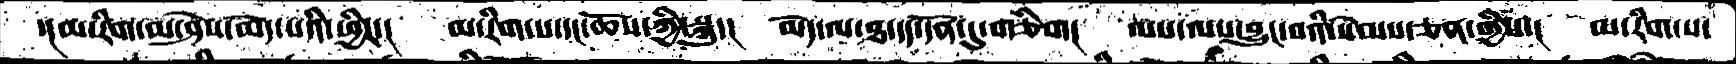་།མ་རིག་མ་ཤེས་མེད་པའི་ཕྱིར་།  མ་རིག་པ་དང་ཆོས་ཀྱི་སྐུ་།  མེད་ལ་ཐ་དད་དོན་དུ་གཅིག། ལས་ལས་བྱུང་བའི་སེམས་ཅན་གྱིས་། མ་རིག་པ་
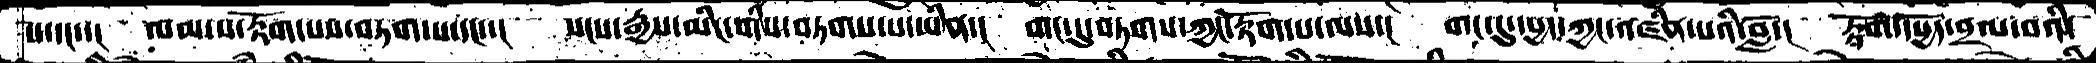པ་དང་་།  ལམ་པ་རྟོག་པས་བཏག་པ་དང་་།  སངས་རྒྱས་མིང་གིས་བཏགས་པ་ཡིན་།  གང་དུ་བཏགས་ཀྱང་རྟོག་པ་ལས་།  གང་དུ་དཔྱད་ཀྱང་འཛིན་པའི་བློ་།  རྟོག་དཔྱོད་བྲལ་བའི་
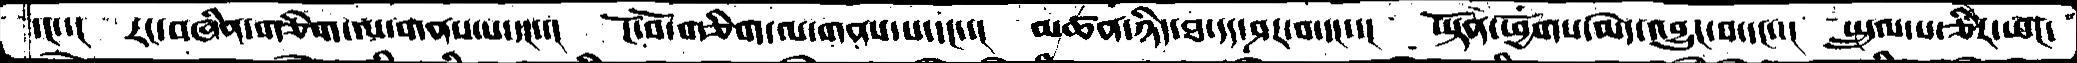དང་།  རང་བཞིན་གཅིག་ལ་གནས་པ་དང་་།  ངོ་བོ་གཅིག་ལ་གནས་པ་དང་་།  མཚན་ཉིད་ཐ་དད་ཤར་བ་དང་་།  ཡྟོན་ཕྱོགས་མེད་འབྱུང་བ་དང་་།  སྤྲུལ་པ་ཅིར་ཡང་
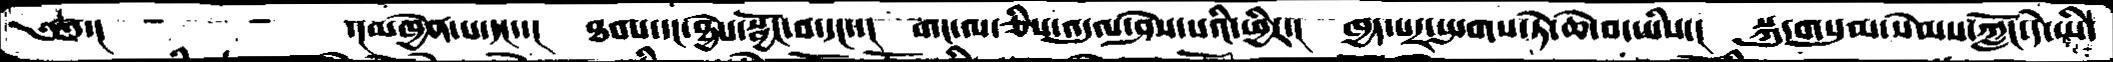༄༅་།        ་།མཁྱེན་པ་དང་་།  ཐབས་དང་ཐྱེས་སྦྱོང་བ་དང་་།  གང་ལ་ཅིས་འདུལ་ཤེས་པའི་ཕྱིར་།  ཁྱད་པར་སྤགས་ཏེ་ཆེ་བ་ཡིས་།  སྐུ་གསུམ་སེམས་ཀློང་དེ་ཡི་
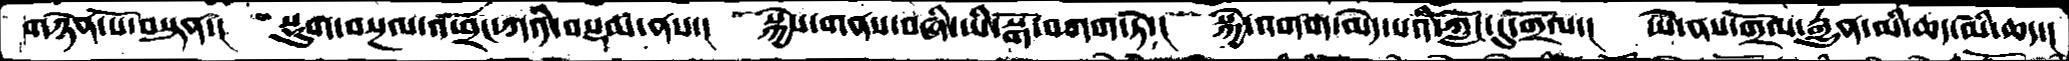གཉེན་པོ་བསྟན་།  སྡུག་བསྔལ་འཕྲོང་ཀའི་བསྡམ་ནས་།  སྐྱེས་གནས་བཞི་ཡི་སྒོ་བཀག་ཏེ་།  སྐྱེ་འགག་མེད་པའི་ཀློང་དུ་གྲོལ་།  ཡེ་ནས་གྲོལ་རྒྱུན་མི་ཆད་མི་ཆད་།
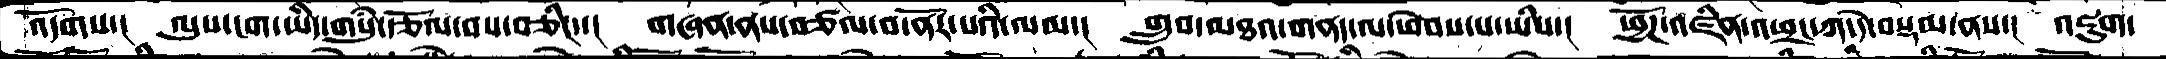འདོགས་།  ལུས་ངག་ཡིད་གསུཾ་རྩོལ་བས་བཅིང་་།  གཞན་ནས་བཙལ་བ་ནོར་པའི་ལམ་།  གྲུབ་མཐའ་གནད་ལ་ཕེབས་པ་ཡིས་།  ཕྱོཌ་འཛིན་འཕྲང་ཀ་དེ་བསྡམ་ནས་།  འཇུག་
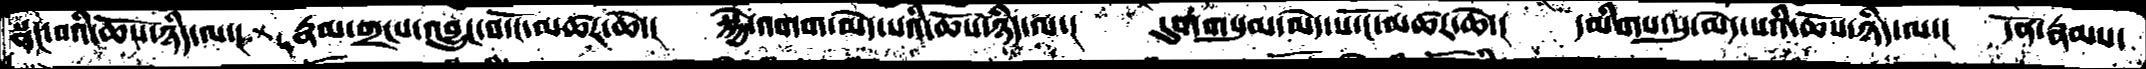སྣང་བའི་ཆོས་ཉིད་ལ་། རྣམ་གྲངས་འབྱུང་བ་ངོ་མཚར་ཆེ་། སྐྱེ་འགག་མེད་པའི་ཆོས་ཉིད་ལ་། དུག་གསུམ་མེད་པ་ངོ་མཚར་ཆེ་། དམིགས་སུ་མེད་པའི་ཆོས་ཉིད་ལ་། དོན་རྣམས་
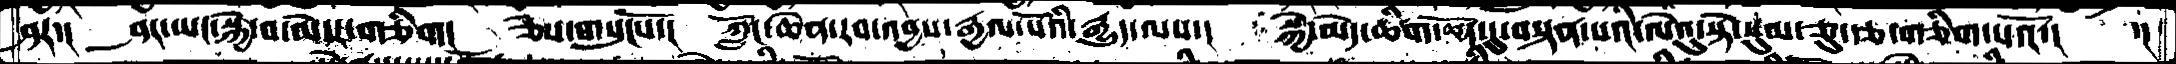ཤར་།  ཤང་ཡང་སྐྱེ་བ་མེདར་གཅིག། ཅེས་གསུངསོ་། ཀློང་ཆེན་རབ་འབྱཾས་རྒྱལ་པོའི་རྒྱུད་ལས་། སྐྱེ་མེད་ཚིག་ཆོད་དུ་བསྟན་པའི་ལེའུ་སྟེ་སུམ་ཅུ་རྩ་གཅིག་པའོ་།  ་།
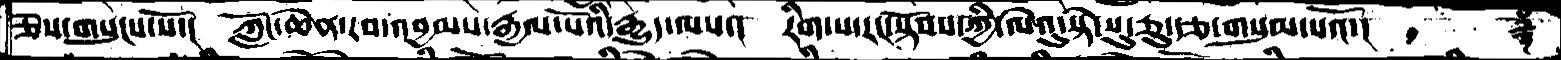ཅེས་གསུངས་སོ་།  ཀློང་ཆེན་རབ་འབྱམས་རྒྱལ་པོའི་རྒྱུད་ལས་།  རིག་པ་རང་སྟོབས་ཀྱི་ལེའུ་སྟེ་སུ་ཅུ་དཅ་གསུམ་པའོ་།  ༈
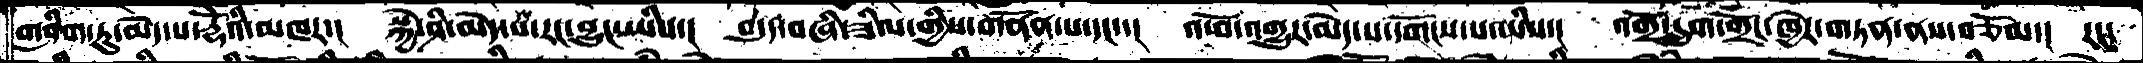གཤིག་ཏུ་མེད་པ་རྡོེའི་མཁར་། སྐྱེ་ཤི་མེད་པ་རང་བྱུང་ཡིས་། བདུད་བཞི་ཟིལ་གྱིས་གནོན་པ་དང་་། འཕོ་འགྱུར་མེད་པ་དགོངས་པ་ཡིས་། འགྲོ་དྲུག་གྲོང་ཁྱེར་གཏན་ནས་བཅོམ་། རང་
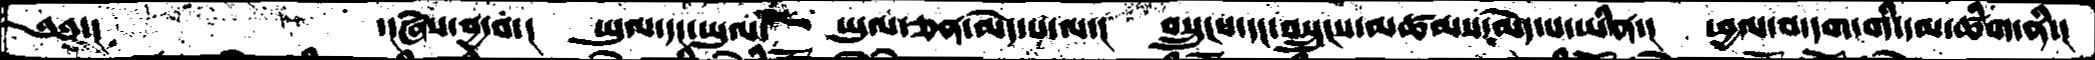༄༅་།       ་།ཞེས་བྱ་བ་།  ཡུལ་དང་ཡུལ་    ཡུལ་ཅན་མེད་པ་ལ་།  བསྲུངས་དང་བསྲུངས་མཚམས་མེད་པ་ཡིན་།  ཕྱལ་བ་དག་གི་དམ་ཚིག་ནི་།
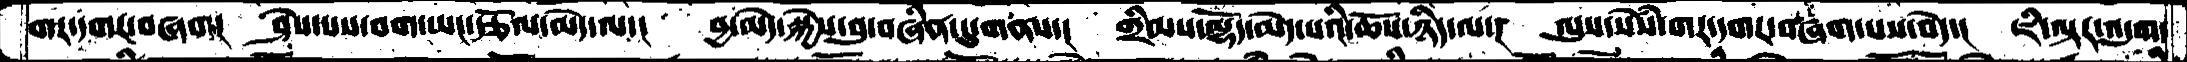གར་དགར་བཞག། ཤེས་པས་བག་ཡང་རྩོལ་མེད་ལ་། བྱ་མེད་སྐྱེས་བུ་བཞིན་དུ་གནས་། གྲིམས་ལྷོད་མེད་པའི་ཆོས་ཉིད་ལ་། ལུས་སེཾས་གར་དགར་བཞག་པས་བདེ་། ཇི་ལྟར་འདུག་
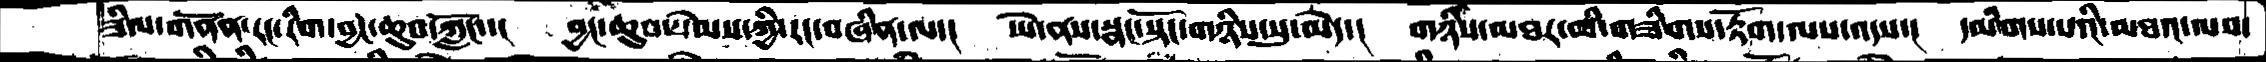ཟིལ་གནོན་རང་རིག་བྱང་ཆུབ་ཀློང་་།  བྱང་ཆུབ་སེམས་ཀྱི་རང་བཞིན་ལ་།  ཡེ་ནས་སྣང་སྟོང་གཉིས་སུ་མེད་།  གཉིས་མཐར་མི་གཟིགས་རྟོག་ལས་འདས་།  དམིགས་པའི་མཐའ་ལས་
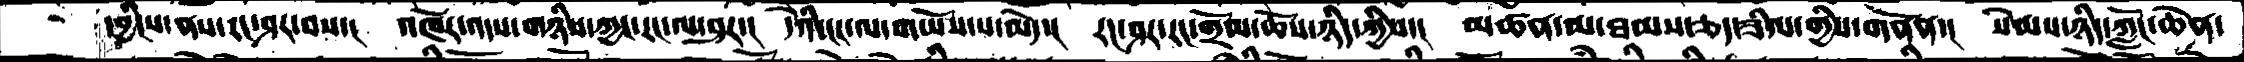དབྱིངས་ནས་རང་ཤར་བས་།  འཁོར་འདས་གཉིས་ཀྱང་རང་ལ་ཤར་།  དེའི་ངང་ལ་གཡོས་པ་མེད་།  རང་ཤར་རང་གྲོལ་ཆོས་ཉིད་ཀྱིས་།  མཚན་མ་ཐམས་ཅད་ཟིལ་གྱིས་གནོན་།  སེམས་ཉིད་ཀློང་ཆེན་
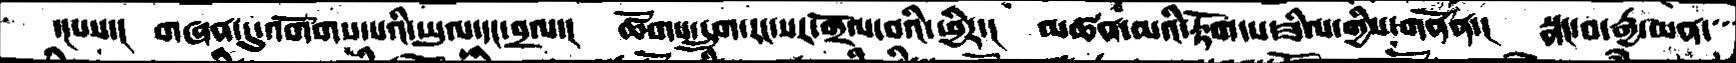་།པས་།   གཞན་དུ་འགོགས་པའི་ཡུལ་དང་བྲལ་།  ཚོགས་དྲུག་རང་སར་གྲོལ་བའི་ཕྱིར་།  མཚན་མའི་རྟོག་པ་ཟིལ་གྱིས་གནོན་།  སྣང་བ་རྒྱ་ཡན་
